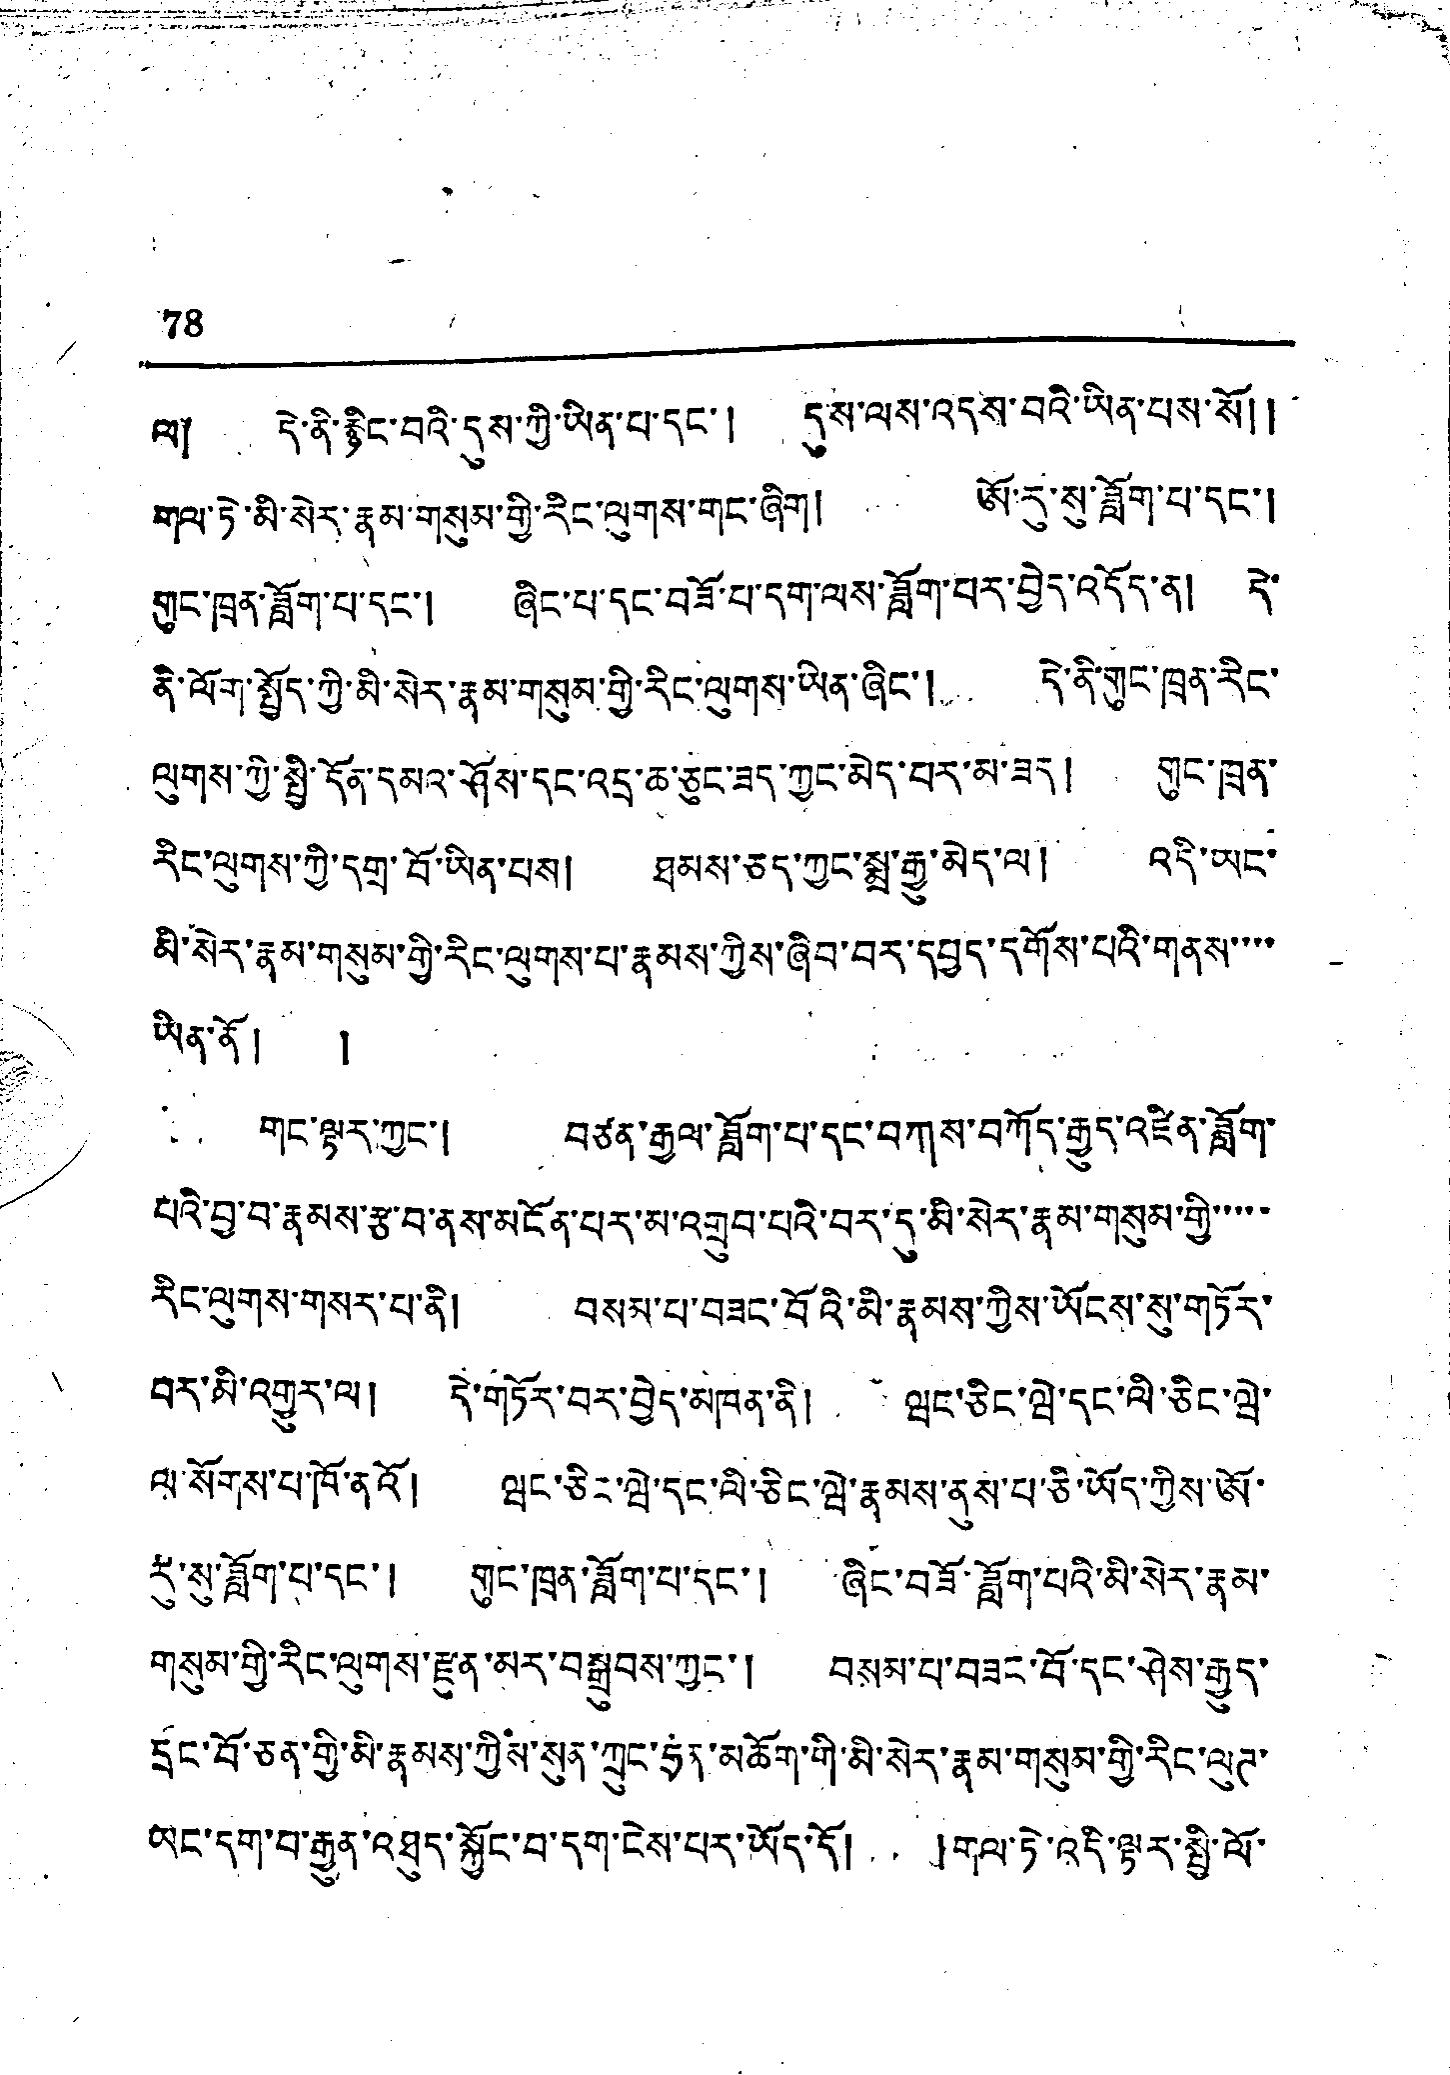78
ལ༐ དེ་ནི་རྙིང་བའི་དུས་ཀྱི་ཡིན་པ་དང་། དུས་ལས་འདས་བའི་ཡིན་པས་སོ།།
གལ་ཏེ་མི་སེར་རྣམ་གསུམ་གྱི་རིང་ལུགས་གང་ཞིག། ཨོ་རུ་སུ་ཟློག་པ་དང་།
གུང་ཁྲན་ཟློག་པ་དང་། ཞིང་པ་དང་བཟོ་པ་དག་ལས་ཟློག་པར་བྱེད་འདོད་ན། དེ་
ནི་ལོག་སྤྱོད་ཀྱི་མི་སེར་རྣམ་གསུམ་གྱི་རིང་ལུགས་ཡིན་ཞིང་། དེ་ནི་གུང་ཁྲན་རིང་
ལུགས་ཀྱི་སྤྱི་དོན་དམའ་ཤོས་དང་འདྲ་ཆ་ཅུང་ཟད་ཀྱང་མེད་པར་མ་ཟད། གུང་ཁྲན་
རིང་ལུགས་ཀྱི་དགྲ་བོ་ཡིན་པས། ཐམས་ཅད་ཀྱང་སྨྲ་རྒྱུ་མེད་ལ། འདི་ཡང་
མི་སེར་རྣམ་གསུམ་གྱི་རིང་ལུགས་པ་རྣམས་ཀྱིས་ཞིབ་བར་དཔྱད་དགོས་པའི་གནས་་་་
ཡིན་ནོ། །
གུང་ལྟར་ཀྱང་། བཙན་རྒྱལ་ཟློག་པ་དང་བཀས་བཀོད་རྒྱུད་འཛིན་ཟློག་
པའི་བྱ་བ་རྣམས་རྩ་བ་ནས་མངོན་པར་མ་འགྲུབ་པའི་བར་དུ་མི་སེར་རྣམ་གསུམ་གྱི་་་་་
རིང་ལུགས་གསར་པ་ནི། བསམ་པ་བཟང་བོའི་མི་རྣམས་ཀྱིས་ཡོངས་སུ་གཏོར་
བར་མི་འགྱུར་ལ། དེ་གཏོར་བར་བྱེད་མཁན་ནི། ཝང་ཅིང་ཝེ་དང་ལི་ཅིང་ཝེ་
ལ་སོགས་པ་ཁོ་ནའོ། ཝང་ཅིང་ཝེ་དང་ལི་ཅིང་ཝེ་རྣམས་ནས་པ་ཅི་ཡོད་ཀྱིས་ཨོ་
རི་སུ་ཟློག་པ་དང་། གུང་ཁྲན་ཟློག་པ་དང་། ཞིང་བཟོ་ཟློག་པའི་མི་སེར་རྣམ་
གསུམ་གྱི་རིང་ལུགས་རྫུན་མར་བསྒྲུབས་ཀྱང་། བསམ་པ་བཟུང་བོ་དང་ཤེས་རྒྱུད་
དྲང་བོ་ཅན་གྱི་མི་རྣམས་ཀྱིས་སུན་ཀྲུང་ཧྲན་མཆོག་གི་མི་སེར་རྣམ་གསུམ་གྱི་རིང་ལུཊ་
ཡང་དག་བ་རྒྱུན་འཐུད་སྐྱོང་བ་དག་ངེས་པར་ཡོད་དོ། །གལ་ཏེ་འདི་ལྟར་སྤྱི་ལོ་
